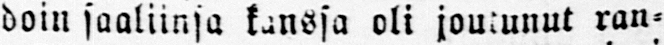doin saaliinsa kanssa oli joutunut ran-
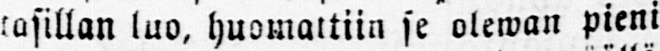tasillan luo, huomattiin se olewan pieni
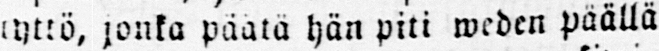tyttö, jonka päätä hän piti weden päällä
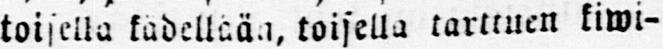toisella kädellään, toisella tarttuen kiwi-
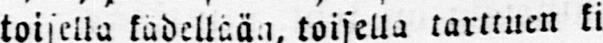möljään.
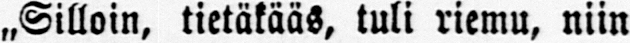Silloin, tietäkääs, tuli riemu, niin
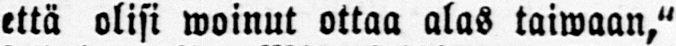että olisi woinut ottaa alas taiwaan,"
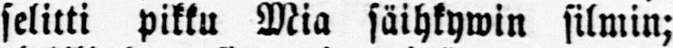selitti pikku Mia säihkywin silmin;
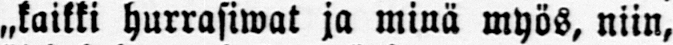˶kaikki hurrasiwat ja minä myös, niin,
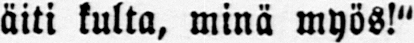äiti kulta, minä myös!"
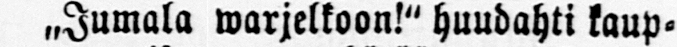˶Jumala warjelkoon!" huudahti kaup-
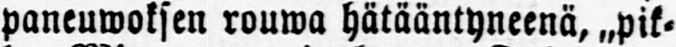paneuwoksen rouwa hätääntyneenä, ˶pik-
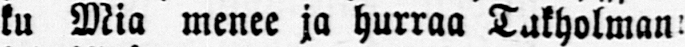ku Mia menee ja hurraa Tukholman:
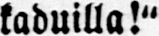kaduilla!"
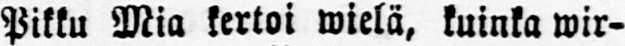Pikku Mia kertoi wielä, kuinka wir-
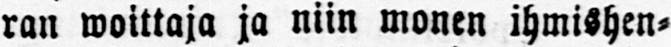ran woittaja ja niin monen ihmishen-
